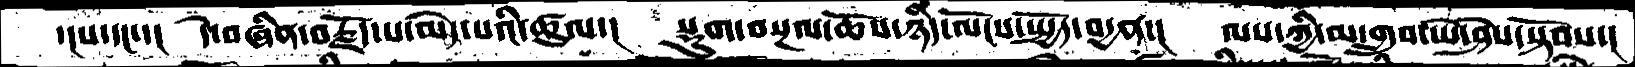་།པ་དང་་།   དེ་བཞིན་བརྗོད་པ་མེད་པའི་ཚུལ་།   སྡུག་བསྔལ་ཆོས་ཉིད་ལོངས་སྤྱོད་བདྱན་།  ལས་ཀྱི་མ་གྲུབ་ཡེ་ཤེས་སྟོབས་།
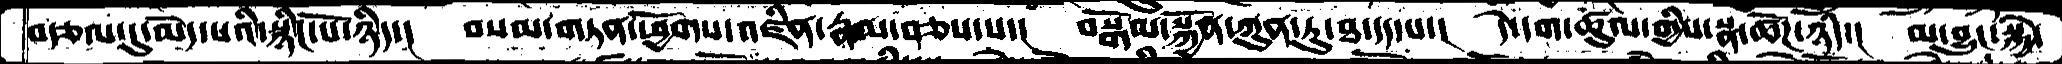བརྩལ་དུ་མེད་པའི་སྙིང་པོ་ཉིད་།   བསམ་གཏན་ཕྱོགས་འཛིན་རྣམ་བཅས་པ་།  བསྒོམ་སྐྱོན་ཀུན་ཏུ་ཐ་དད་པ་།   དེ་དག་ཚུལ་གྱིས་སྣ་ཚོཌ་ཉིད་།  མ་བྱུང་སྐྱེ་
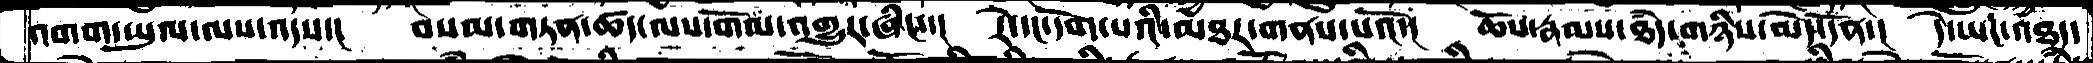འགག་ཡུལ་ལས་འདས་།   བསམ་གཏན་ཚད་ལས་གོལ་འགྱུར་ཞིང་་།   རེ་དང་དོག་པའི་མཐར་གནས་པའོ་།   ཆོས་རྣམས་ཐཾད་གཉིས་མེད་དོན་།  དེ་ཡང་འཐད་
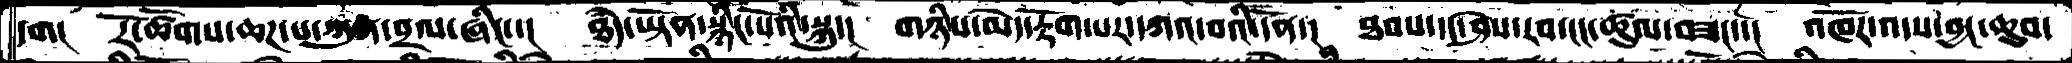དག།   རོ་ཚོགས་ཆཌ་པ་ཀུན་བྲལ་ཞིང་་།   ཐཾད་ཡྟོན་སྙིང་པོའི་སྐུ་།  གཉིས་མེད་རྟོག་པར་དཀའ་བའི་དོན་།   ཐབས་དང་ཤེས་རབ་ངང་ཚུལ་བཟང་་།  འཁོར་འདས་བྱང་ཆུབ་
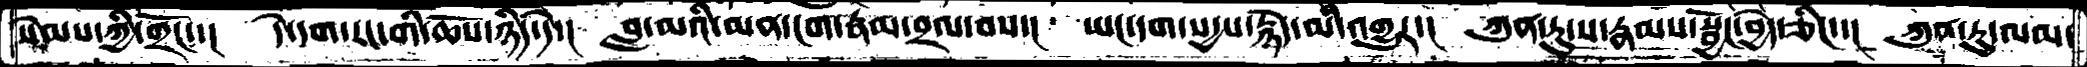སེམས་ཀྱི་གྲོང་་།   དེ་དག་རང་གི་ཆོས་ཉིད་དེ་།   བླ་མའི་མན་ངག་རྣམ་བྲལ་བས་།   ཡང་དག་སདྱས་རྙེད་མི་འགྱུར་།  ཀུན་ཏུ་ས་རྣམས་སྦྱོང་བྱེད་ཅིང་་།  ཀུན་ཏུ་ལམ་
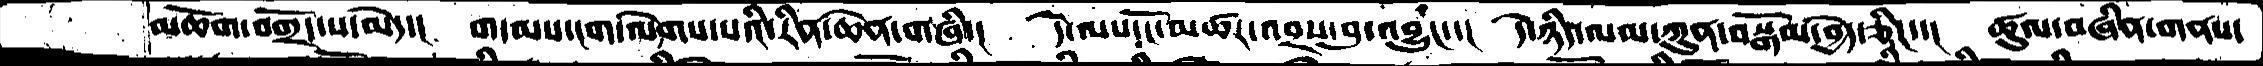མཆོག་བགྲོད་ས་མེད་།   གདམས་ངག་ལེགས་པའི་རིན་ཆེན་གཞི་།   དེ་ལས་ངོ་མཚར་འབྲས་བུ་འབྱུང་་།   དེ་ཉིད་ལམ་ཀུན་བསྒོམ་བྱེད་ཅིང་་།  ཚུལ་བཞིན་གནས་
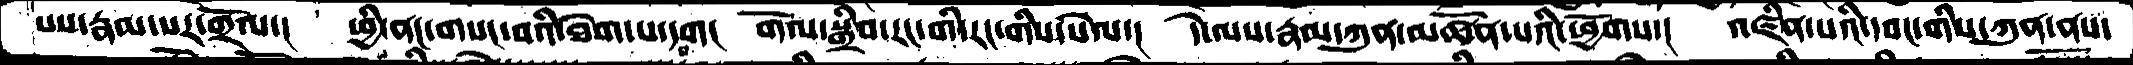པས་རྣམ་པར་གྲོལ་།   ཕྱི་ནང་གསང་བའི་ཐེག་པ་དག།  གོལ་སྒྲིབ་རང་གི་རང་གིས་སེལ་།   དེ་ལས་རྣམ་ཀུན་མཚོན་པའི་ཕྱོགས་།  འཛིན་པའི་དབང་གིས་ཀུན་ནས་
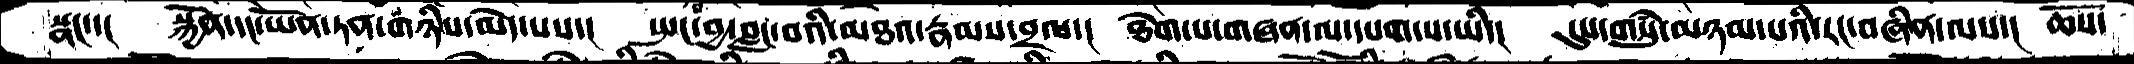སྣང་་།   སྐྱོན་དང་ཡོན་ཏན་གཉིས་མེད་པས་།   སྤང་བྱ་བླང་བའི་མཐའ་རྣམས་བྲལ་།   ཐེག་པ་གཞན་ལ་དཔག་པ་ཡི་།   དུས་གསུཾ་མཉམ་པའི་རང་བཞིན་ལས་།  ཆོས་
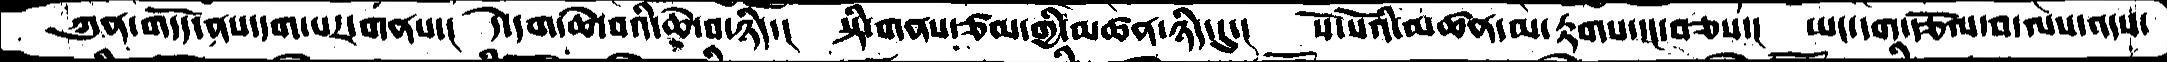ཀུན་གདོད་ནས་དག་པར་གནས་།   དེ་དག་ཆེ་བའི་ཆེ་བ་ཉིད་།   སྟི་གནས་ཙམ་གྱི་མཚན་ཉིད་དུ་།  སོ་སོའི་མཚན་མ་རྟགས་དང་བཅས་།   ཡང་དག་རྩོལ་བ་ལས་འདས་
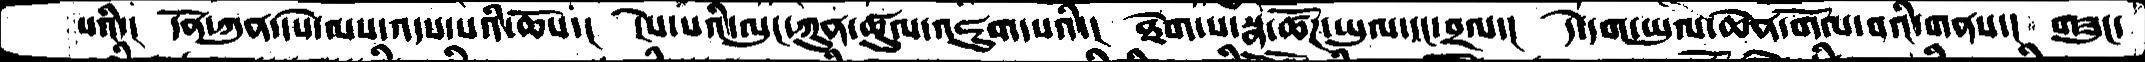པའི་།   དོན་ཀུན་དཔེ་ལས་འདས་པའི་ཆོས་།  ངེས་པའི་ལུང་ཀུན་ཚུལ་འཇུག་པའི་།  ཐེག་པ་སྣ་ཚོཌ་ཡུལ་དང་བྲལ་།  དེ་དག་ཡུལ་ཆེན་གོལ་བའི་གནས་།  གཟུང་
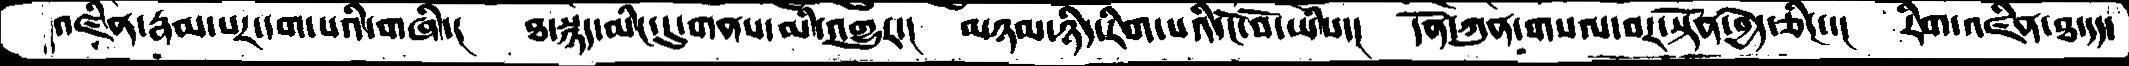འཛིན་རྣམ་པར་དག་པའི་གཞི་།   ཐ་སྙད་མིང་དུ་གནས་མི་འགྱུར་།   མཉམ་ཉིད་རིག་པའི་ངོ་བོ་ཡིས་།   དོན་ཀུན་གསལ་བར་སྟོན་བྱེད་ཅིང་་།  རིག་འཛིན་ཐ་དད་
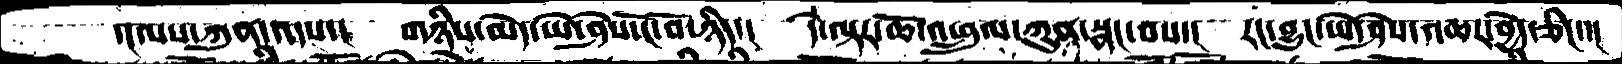་།ལས་ཀུན་འདས་།   གཉིས་མེད་ཡེ་ཤེས་ངོ་བོ་ཉིད་།  དེ་ལྟར་ཆོ་འཕྲུལ་ཀུན་སྣང་བས་།   རང་བྱུང་ཡེ་ཤེས་འཆར་བྱེད་ཅིང་་།
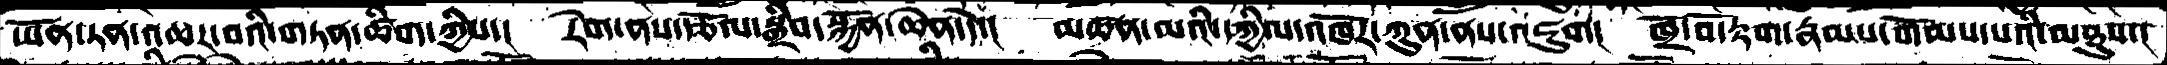ཡོན་ཏན་འཆར་བའི་གཏན་ཚིག་ཀྱིས་།   རེག་ནས་རྩོལ་སྒྲིབ་སྐྱོན་ཆེན་དེ་།   མཚན་མའི་དཀྱིལ་འཁོར་ཀུན་ནས་འཇུག།   ཁྲོ་བོ་རྟག་རྣམས་གོམས་པའི་མཐུས་།
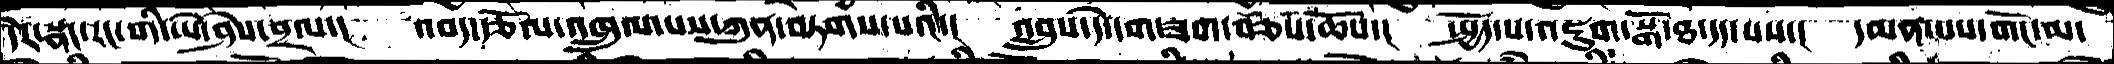དེར་སྣང་རང་གི་ཡེ་ཤེས་བྲལ་།   འབད་རྩོལ་འཁྲུལ་པས་ཀུན་བཏགས་པའི་།   འབྲུས་དེ་དག་ཟག་བཅས་ཆོས་།   སྤྱོད་པ་འཇུག་སྒོ་ཐ་དད་པས་།  དམན་པས་གོང་མ་
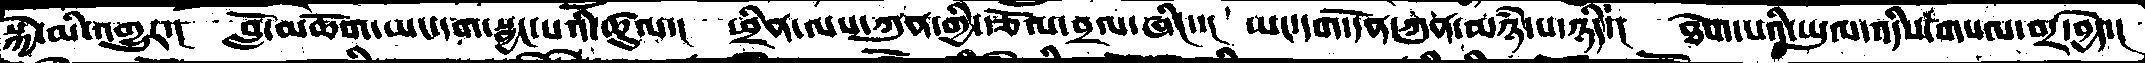སྐྱེ་མི་འགྱུར་།   བློ་མཆོག་ཡང་དག་སྦྱང་པའི་ཚུལ་།  ཕྲིན་ལས་ཀུན་གྱི་རྩོལ་བྲལ་ཞིང་་།  ཡང་དག་དོན་ཀུན་མཉཾ་པ་ཉིད་།   ཐེག་པའི་ཡུལ་འདིས་གསལ་བར་བྱེད་།
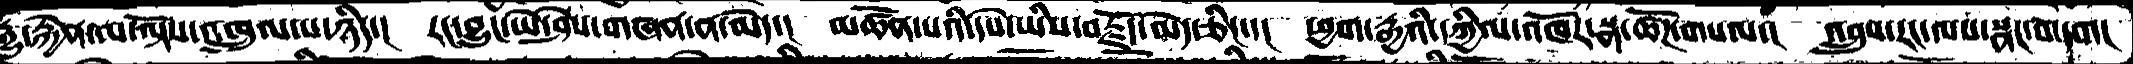རྒྱུ་རྐྱེན་ལ་ལྟོས་འཁྲུལ་པ་ཉིད་།  རང་བྱུང་ཡེ་ཤེས་གཞན་ན་མེད་།  མཚོན་པའི་དཔེ་ཡིས་བརྗོད་མེད་ཅིང་་།  ཕྱག་རྒྱའི་དཀྱིལ་འཁོར་སྣ་ཚོཌ་གསལ་།  འབྲུས་རང་ལས་སྣང་བ་དག།
